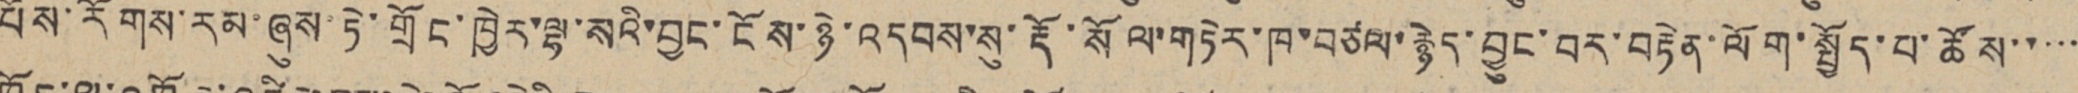པོས་རོགས་རམ་ཞུས་ཏེ་གྲོང་ཁྱེར་ལྷ་སའི་བྱང་ངོས་ཉེ་འདབས་སུ་རྡོ་སོལ་གཏེར་ཁ་བཙལ་རྙེད་བྱུང་བར་བརྟེན་ལོག་སྤྱོད་པ་ཚོས་་་་་
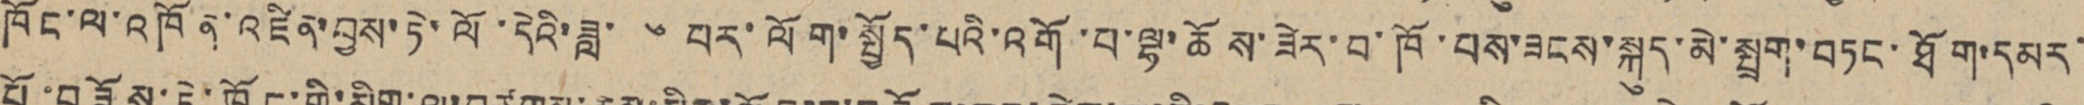ཁོང་ལ་འཁོན་འཛིན་བྱས་ཏེ་ལོ་དེའི་ཟླ་ ༦ པར་ལོག་སྤྱོད་པའི་འགོ་པ་ལྷ་ཆོས་ཟེར་བ་ཁོ་བས་ཟངས་སྐུད་མེ་སྤྲག་བཏང་ཐོག་དམར་
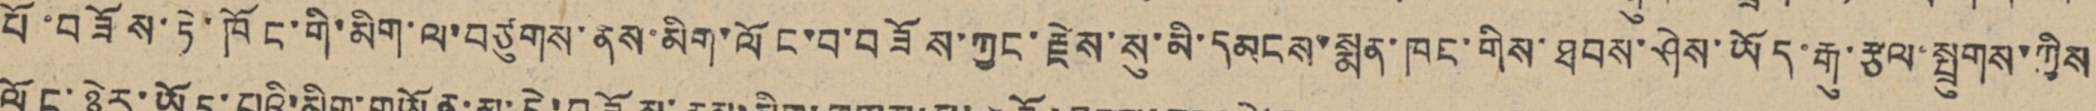པོ་བཟོས་ཏེ་ཁོང་གི་མིག་ལ་བཙུགས་ནས་མིག་ལོང་བ་བཟོས་ཀྱང་རྗེས་སུ་མི་དམངས་སྨན་ཁང་གིས་ཐབས་ཤེས་ཡོད་རྒུ་རྩལ་སྤྲུགས་ཀྱིས
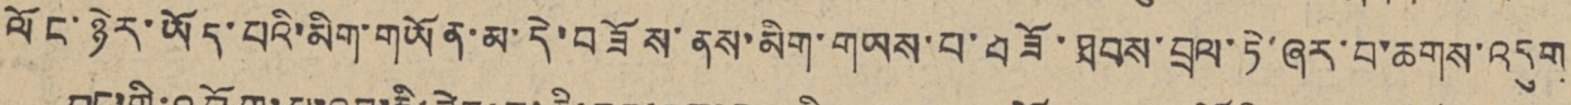ལོང་ཉེར་ཡོད་པའི་མིག་གཡོན་མ་དེ་བཟོས་ནས་མིག་གཡས་པ་བཟོ་ཐབས་བྲལ་ཏེ་ཞར་བ་ཆགས་འདུག
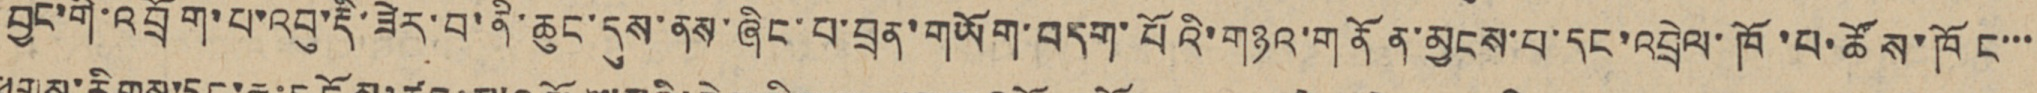བྱང་གི་འབྲོག་པ་འབུ་རྡི་ཟེར་བ་ནི་ཆུང་དུས་ནས་ཞིང་པ་བྲན་གཡོག་བདག་པོའི་གཉའ་གནོན་མྱངས་པ་དང་འབྲེལ་ཁོ་བ་ཚོས་ཁོང་་་
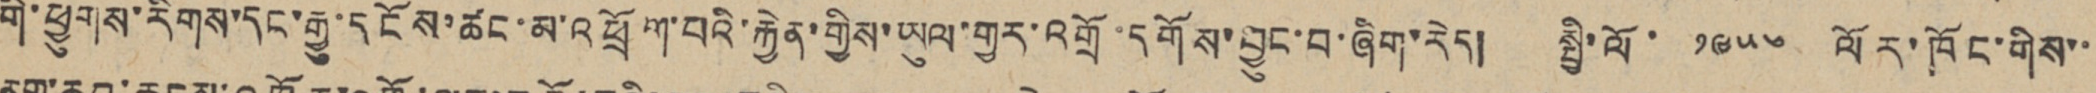གི་ཕྱུགས་རིགས་དང་རྒྱུ་དངོས་ཚང་མ་འཕྲོག་པའི་རྐྱེན་གྱིས་ཡུལ་གྱར་འགྲོ་དགོས་བྱུང་བ་ཞིག་རེད། སྤྱི་ལོ་ ༡༩༥༦ ལོར་ཁོང་གིས་་
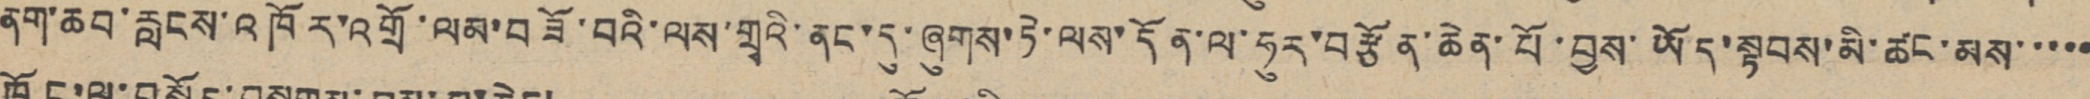ནག་ཆབ་རླངས་འཁོར་ལམ་བཟོ་བའི་ལས་གྲྭའི་ནང་དུ་ཞུགས་ཏེ་ལས་དོན་ལ་ཧུར་བརྩོན་ཆེན་པོ་བྱས་ཡོད་སྟབས་མི་ཚང་མས་་་་་
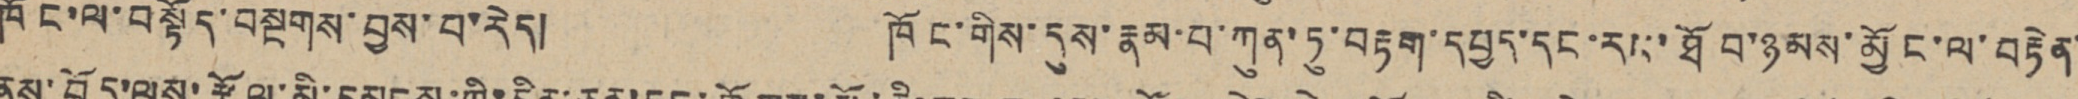ཁོང་ལ་བསྟོད་བསྔགས་བྱས་པ་རེད། ཁོང་གིས་དུས་རྣམ་པ་ཀུན་ཏུ་བརྟག་དཔྱད་དང་རང་ཐོབ་ཉམས་མྱོང་ལ་བརྟེན་
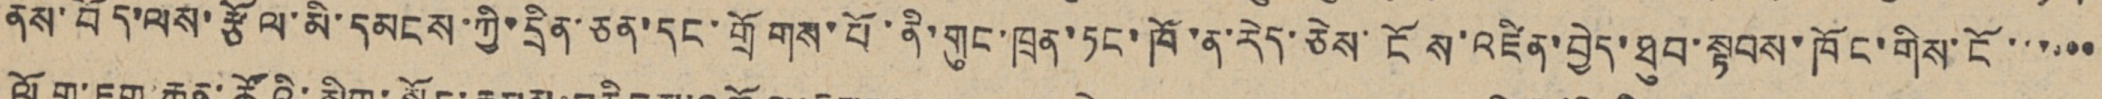ནས་བོད་ལས་རྩོལ་མི་དམངས་ཀྱི་དྲིན་ཅན་དང་གྲོགས་པོ་ནི་གུང་ཁྲན་ཏང་ཁོ་ན་རེད་ཅེས་ངོས་འཛིན་བྱེད་ཐུབ་སྟབས་ཁོང་གིས་ངོ་་་་་་
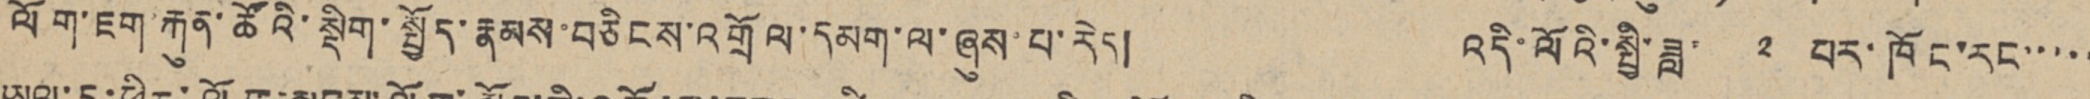ལོག་ཇག་རྐུན་ཚོའི་སྡིག་སྤྱོད་རྣམས་བཅིངས་འགྲོལ་དམག་ལ་ཞུས་པ་རེད། འདི་ལོའི་སྤྱི་ཟླ་ ༢ པར་ཁོང་རང་་་་་
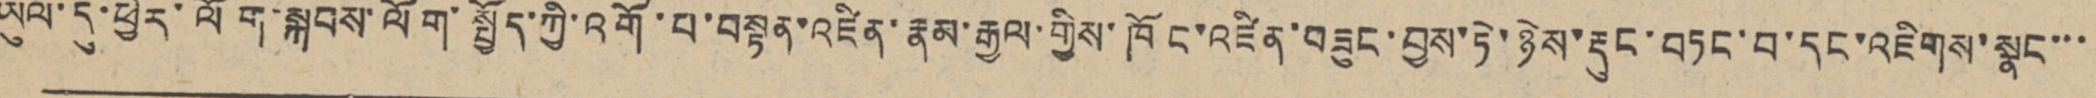ཡུལ་དུ་ཕྱིར་ལོག་སྐབས་ལོག་སྤྱོད་ཀྱི་འགོ་བ་བསྟན་འཛིན་རྣམ་རྒྱལ་གྱིས་ཁོང་འཛིན་བཟུང་བྱས་ཏེ་ཉེས་རྡུང་བཏང་བ་དང་འཇིགས་སྣང་་་
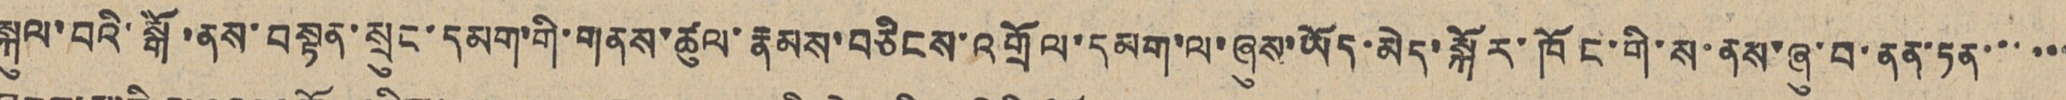སྐུལ་བའི་སྒོ་ནས་བསྟན་སྲུང་དམག་གི་གནས་ཚུལ་རྣམས་བཅིངས་འགྲོལ་དམག་ལ་ཞུས་ཡོད་མེད་སྐོར་ཁོང་གི་ས་ནས་ཞུ་བ་ནན་ཏན་་་་་་
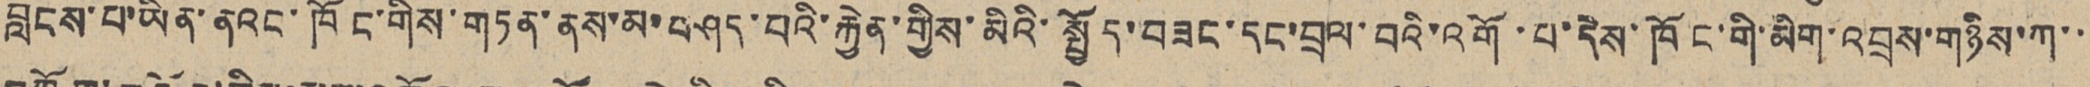བླངས་པ་ཡིན་ནའང་ཁོངས་གིས་གཏན་ནས་མ་བཤད་པའི་རྐྱེན་གྱིས་མིའི་སྤྱོད་བཟང་དང་བྲལ་བའི་འགོ་པ་དེས་ཁོང་གི་མིག་འབྲས་གཉིས་ཀ་་
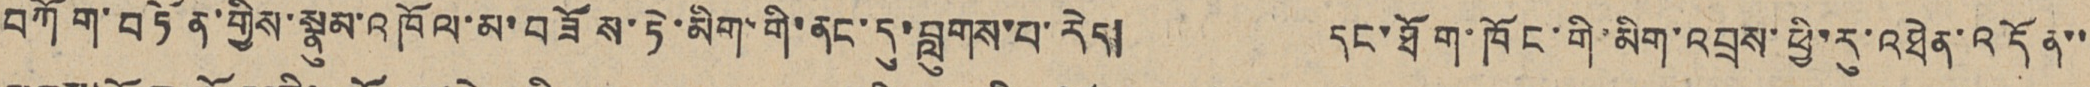བཀོག་བཏོན་གྱིས་སྣུམ་འཁོལ་མ་བཟོས་ཏེ་མིག་གི་ནང་དུ་བླུགས་པ་རེད། དང་ཐོག་ཁོང་གི་མིག་འབྲས་ཕྱི་རུ་འཐེན་འདོན་་
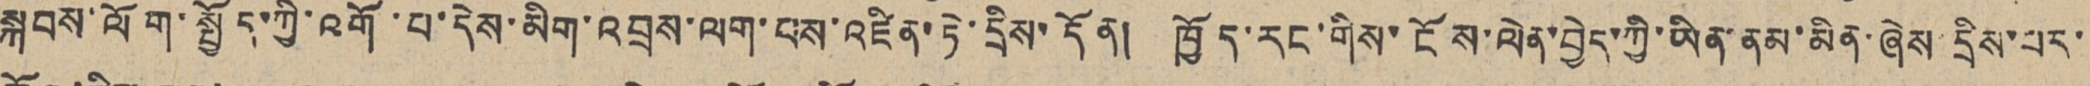སྐབས་ལོག་སྤྱོད་ཀྱི་འགོ་པ་དེས་མིག་འབྲས་ལག་པས་འཛིན་ཏེ་དྲིས་དོན། ཁྱོད་རང་གིས་ངོས་ལེན་བྱེད་ཀྱི་ཡིན་ནམ་མིན་ཞེས་དྲིས་པར་
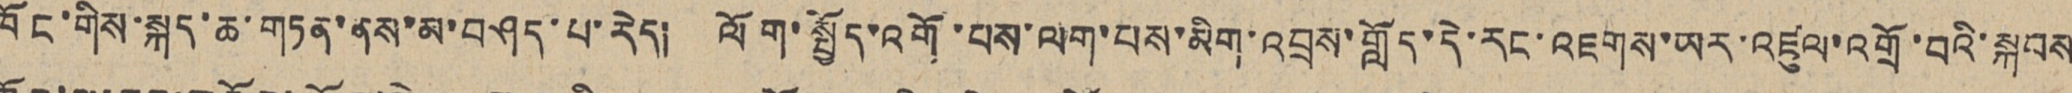ཁོང་གིས་སྐད་ཆ་གཏན་ནས་མ་བཤད་པ་རེད། ལོག་སྤྱོད་འགོ་པས་ལག་པས་མིག་འབྲས་གློད་དེ་རང་འཇགས་ཡར་འཛུལ་འགྲོ་བའི་སྐབས
